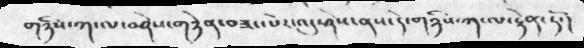གཉིས་པ་ལ་བཤེས་གཉེན་བཟང་པོར་འདུ་ཤེས་ནས་དེ་གཉིས་ཀ་ལ་རྟེན་ཏོ་།
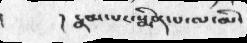།    ། རྣམ་པར་སྨིན་པ་ལ་མི་
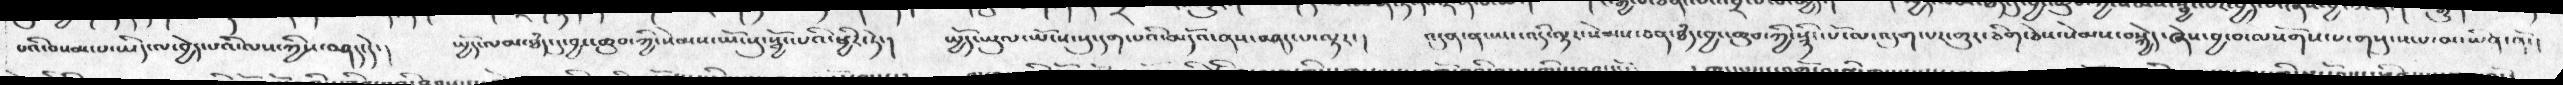པའི་བསམ་པ་ཡིད་ལ་བྱེད་པའི་ལས་ཀྱིས་བཤད་དེ་།  སྤྱོད་ལམ་ཐཾད་དུ་བྱང་ཆུབ་ཀྱི་སེམས་ཡོངསུ་སྦྱོང་པའི་ཕྱིར་ཏེ་།  སྤྱོད་ཡུལ་ཡོངས་སུ་དག་པའི་མདོའ་ནས་བཤད་པ་ལྟར་།  འདུན་ན་ཡང་འདི་ལྟར་སེམས་ཅན་ཐཾད་བྱང་ཆུབ་ཀྱི་སྙིང་པོ་མང་འདུག་པར་གྱུར་ཅིག་ཅེས་སེམས་བསྐྱེད་ཞེས་བྱ་བ་ལསོགས་པ་གསུངས་པ་མ་ཡིན་ནོ་།
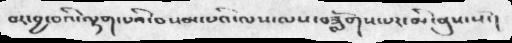བར་བྱ་བའི་ལྷག་པའི་བསམ་པའི་ལས་ལས་བཟློགས་པར་མི་ནུས་སོ་།
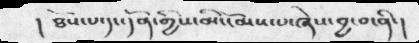།  ཐོས་པ་དང་དོན་གྱིས་མི་ངོམས་པ་ཞེས་བྱ་བ་ནི་།
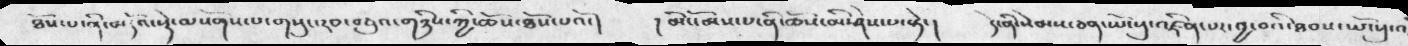ཐོས་ནི་མདོའ་སྡེ་ལསོགས་པ་གསུང་རབ་བཅུའ་གཉིས་ཀྱི་ཆོས་ཐོས་པའོ་།  །་མི་ངོམས་པ་ནི་ཆོས་མི་ཤེས་པ་སྟེ་།  དེ་ནི་སེམས་ཅན་ཡོངསུ་འཛིན་པར་བྱ་བའི་ཐབས་ཡོངསུ་འ
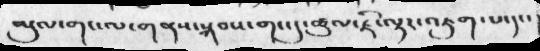ཡུལ་གང་ལ་གནས་སྐབས་གང་དུ་ཚུལ་ཇི་ལྟར་འཇུག་པ་དང་
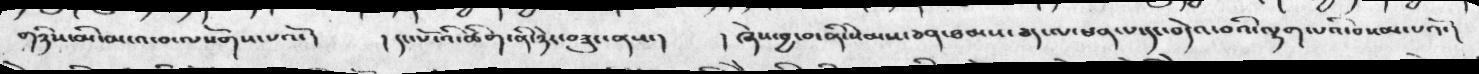གཉིས་མི་མངའ་བ་ལསོགས་པའོ་།      ། དང་པོ་འི་ཚིག་ནི་ཉེར་བཟུང་ནས་།    ། ཞེས་བྱ་བ་ནི་སེམས་ཅན་ཐམས་ཐད་ལ་ཕན་པ་དང་བདེའ་བའི་ལྷག་པའི་བསམ་པའོ་།
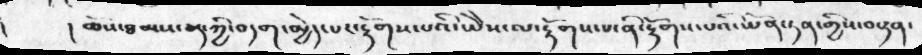།      ། ཆོས་ཐམས་ཅད་ཀྱི་བདག་མྱེད་པར་རྟོགས་པའི་ཡེེས་ལ་རྟོགས་པ་ནི་རྟོགས་པའི་ཡོན་ཏན་གྱིས་བསྟན་
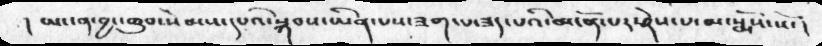།  ཡང་ན་བྱང་ཆུབ་སེམས་དཔའི་སྐབས་ཡིན་པས་ཟག་པ་ཟད་པའི་མངོན་པར་ཤེས་པ་མ་སྨོས་སོ་།
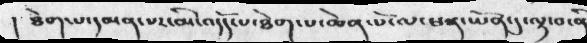།  ཐེག་པ་དམན་པར་མི་འདོད་པ་ཐེག་པ་ཆེན་པོ་ལ་ཕན་ཡོན་དུ་ལྟ་བ་ནི
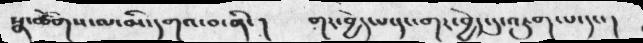སྣ་ཚོགས་ལ་མི་དགའ་ནི་།   གར་བྱེད་པ་དང་གར་བྱེད་དུ་འཇུག་པ་དང་།
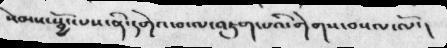སེམས་སྦྱོང་པས་ནི་དགེའ་བ་ལ་འཇུག་པའི་གེགས་བསལ་ལོ་ །
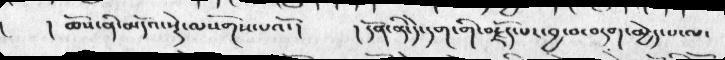།      ། ཆོས་ནི་མདོའ་སྡེ་ལསོགས་པའོ་ །     ། དོན་ནི་དེ་དག་གི་བརྗོད་པར་བྱ་བ་བདག་མྱེད་པ་ལ་
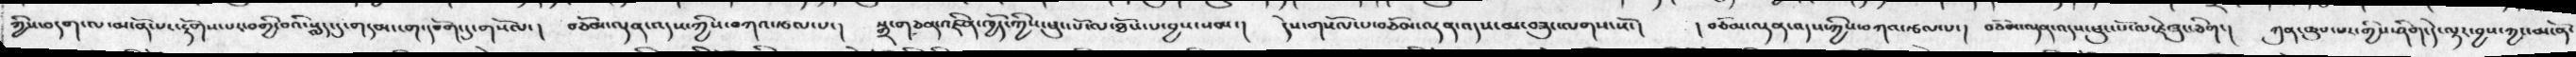ཀྱིས་བདག་ལ་མངོན་པར་རྟོགས་པར་བགྱི་བའི་སླད་དུ་གདམ་ངག་དཔོག་དུ་གསོལ་།   བཅོམ་ལྡན་འདས་ཀྱིས་བཀའ་རྩལ་པ་ །  སྒྲ་གཅན་འཛིན་ཁྱོད་ཀྱིས་ཕུང་པོ་ལ་ཐོས་པ་བྱས་སམ་།    དེས་གསོལ་པ་བཅོམ་ལྡན་འདས་མ་བཟུང་ལགས་སོ་།   ། བཅོམ་ལྡན་འདས་ཀྱིས་བཀའ་རྩལ་པ་།   བཅོམ་ལྡན་འདས་ཕུང་པོ་ལ་ཇེ་ཟུང་ཅིག་།  ཀུན་ཆུབ་པར་གྱིས་ཤིག་དེ་ལྟར་བྱས་ཀྱང་མངོན་
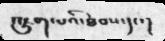འཇུག་པའི་ཐབས་དང་།
